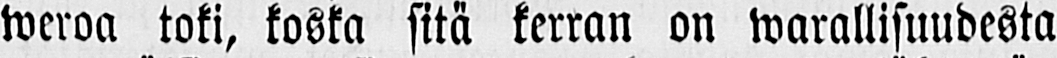weroa toki, koska sitä kerran on warallisuudesta
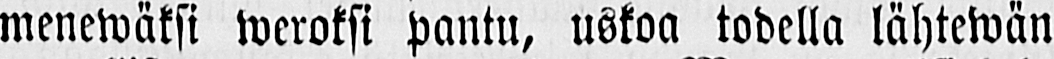menewäksi weroksi pantu, uskoa todella lähtewän
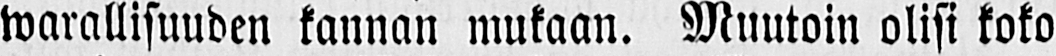warallisuuden kannan mukaan. Muutoin olisi koko
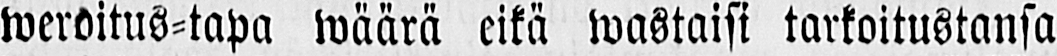weroitus-tapa wäärä eikä wastaisi tarkoitustansa
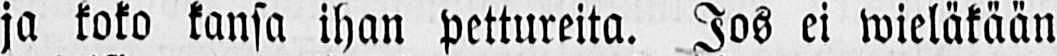ja koko kansa ihan pettureita. Jos ei wieläkään
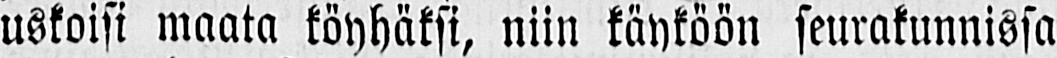uskoisi maata köyhäksi, niin käyköön seurakunnissa
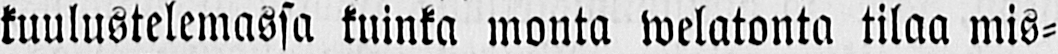kuulustelemassa kuinka monta welatonta tilaa mis-
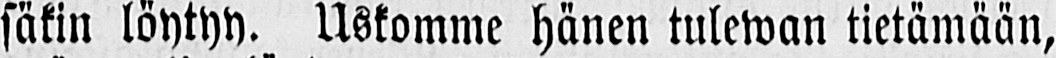säkin löytyy. Uskomme hänen tulewan tietämään,
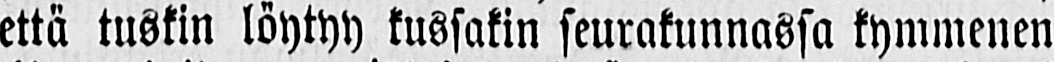että tuskin löytyy kussakin seurakunnassa kymmenen
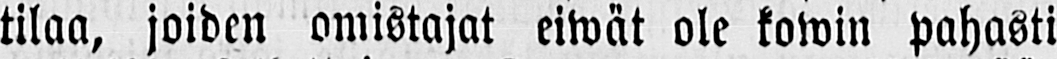tilaa, joiden omistajat eiwät ole kowin pahasti
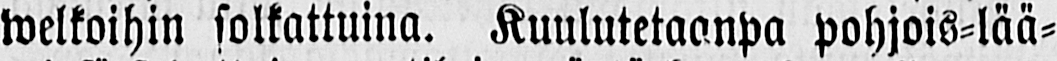welkoihin solkattuina. Kuulutetaanpa pohjois-lää-
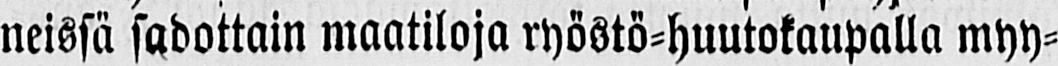neissä sadottain maatiloja ryöstö-huutokaupalla myy-
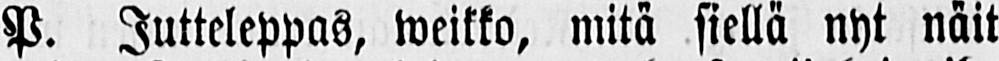P. Jutteleppas, weikko, mitä siellä nyt näit
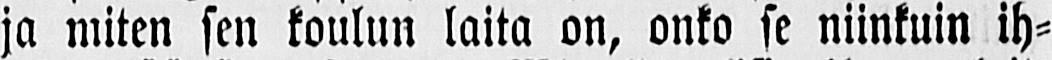ja miten sen koulun laita on, onko se niinkuin ih-
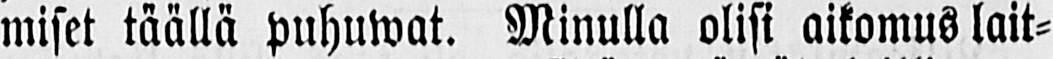miset täällä puhuwat. Minulla olisi aikomus lait-
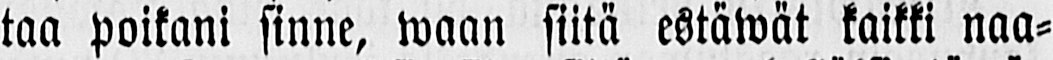taa poikani sinne, waan siitä estäwät kaikki naa-
